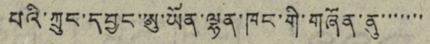པའི་ཀྲུང་དབྱང་ཨུ་ཡོན་ལྷན་ཁང་གི་གཞོན་ནུ་་་་་་་
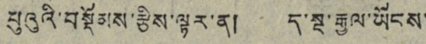པུའུའི་བསྡོམས་རྩིས་ལྟར་ན། ད་སྔ་རྒྱལ་ཡོངས་
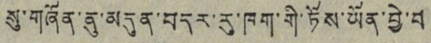སུ་གཞོན་ནུ་མདུན་བདར་རུ་ཁག་གི་ཏོས་ཡོན་བྱེ་བ
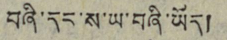བཞི་དང་ས་ཡ་བཞི་ཡོད།
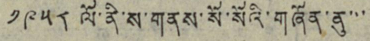༡༩༥༨ ལོ་ནི་ས་གནས་སོ་སོའི་གཞོན་ནུ་་་
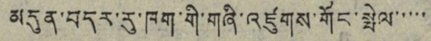མདུན་བདར་རུ་ཁག་གི་གཞི་འཛུགས་གོང་སྤེལ་་་་་
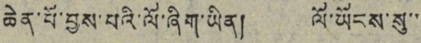ཆེན་པོ་བྱས་པའི་ལོ་ཞིག་ཡིན། ལོ་ཡོངས་སུ་་
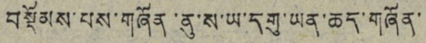བསྡོམས་པས་གཞོན་ནུ་ས་ཡ་དགུ་ཡིན་ཆད་གཞོན་
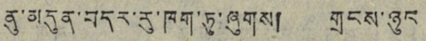ནུ་མདུན་བདར་རུ་ཁག་ཏུ་ཞུགས། གྲངས་ཉུད་
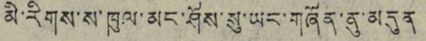མི་རིགས་ས་ཁུལ་མང་ཤོས་སུ་ཡང་གཞོན་ནུ་མདུན
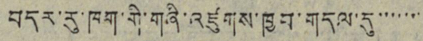བདར་རུ་ཁག་གི་གཞི་འཛུགས་ཁྱབ་གདལ་དུ་་་་་་་
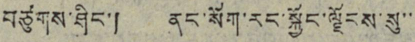བཙུགས་ཤིང་། ནང་སོག་རང་སྐྱོང་ལྗོངས་སུ་་
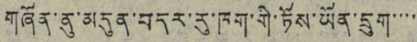གཞོན་ནུ་མདུན་བདར་རུ་ཁག་གི་ཏོས་ཡོན་དྲུག་་་་
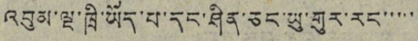འབུམ་ལྔ་ཁྲི་ཡོད་པ་དང་ཤིན་ཅང་ཡུ་གུར་རང་་་་་
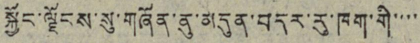སྐྱོང་ལྗོངས་སུ་གཞོན་ནུ་མདུན་བདར་རུ་ཁག་གི་་་་
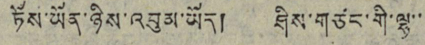ཏོས་ཡོན་ཉིས་འབུམ་ཡོད། ཤིས་གཙང་གི་ལྷ་་
